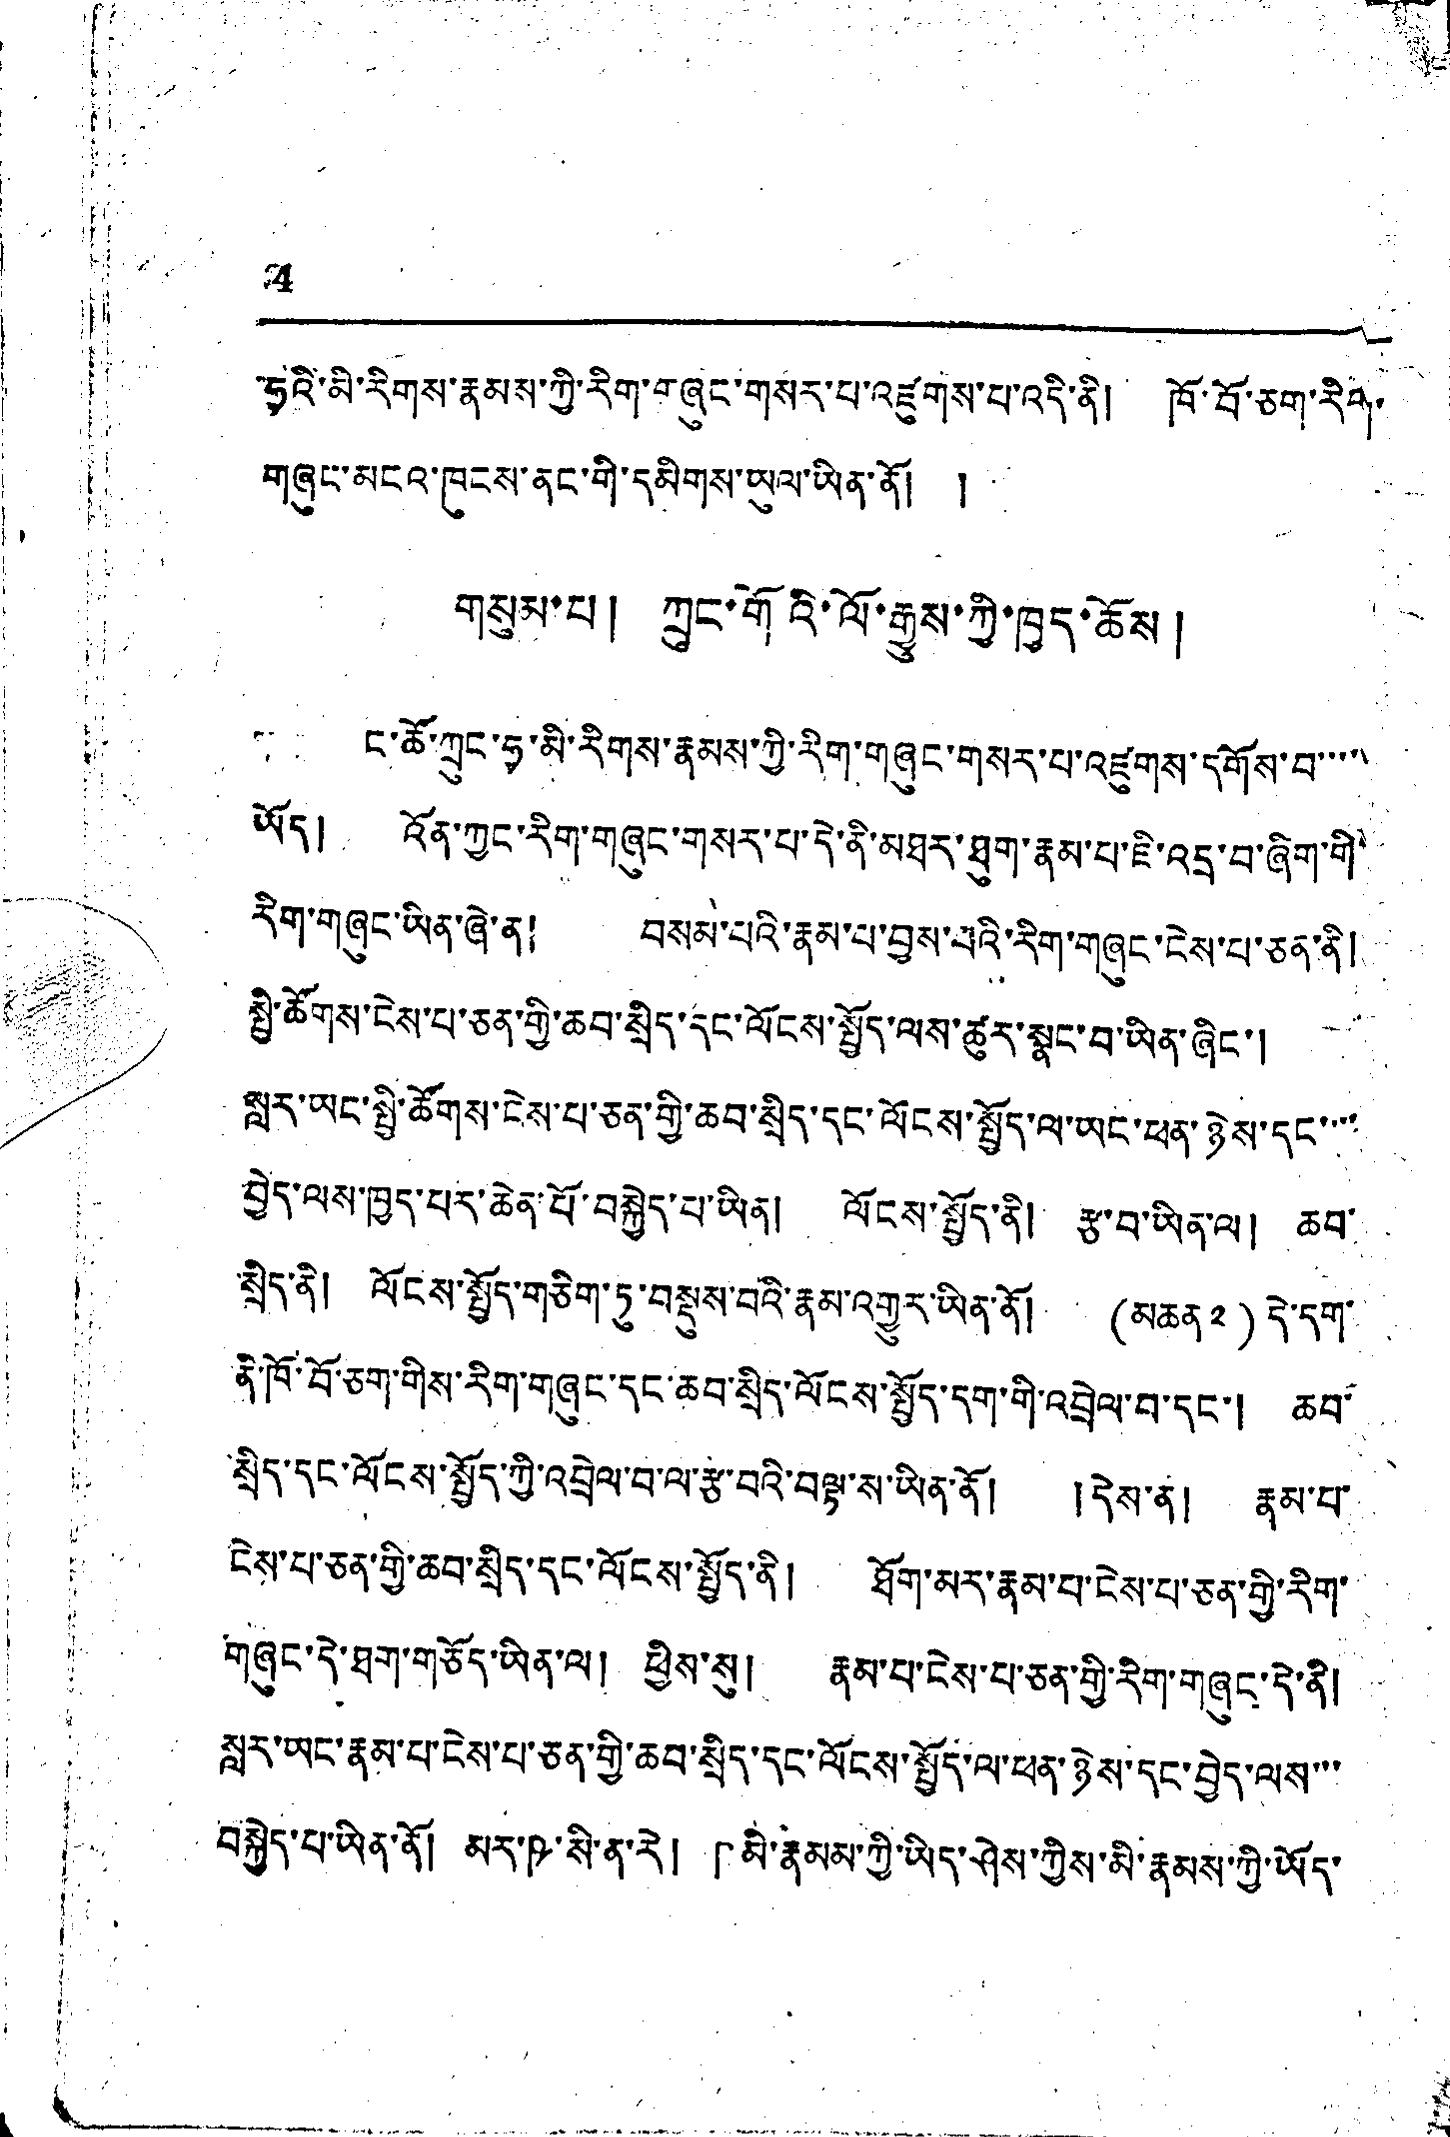4
ཧྭའི་མི་རིགས་རྣམས་ཀྱི་རིག་གཞུང་གསར་པ་འཛུགས་པ་འདི་ནི། ཁོ་བོ་ཅག་རིག་
གཞུང་མངའ་ཁུངས་ནང་གི་དམིགས་ཡུལ་ཡིན་ནོ། །
གསུམ་པ། ཀྲུང་གོའི་ལོ་རྒྱུས་ཀྱི་ཁྱད་ཆོས།
ང་ཚོ་ཀྲུང་ཧྭ་མི་རིགས་རྣམས་ཀྱི་རིག་གཞུང་གསར་པ་འཛུགས་དགོས་བ་་་་་
ཡོད། འོན་ཀྱང་རིག་གཞུང་གསར་པ་དེ་ནི་མཐར་ཐུག་རྣམ་པ་ཇི་འདྲ་བ་ཞིག་གི་
རིག་གཞུང་ཡིན་ཞེ་ན། བསམ་པའི་རྣམ་པ་བྱས་པའི་རིག་གཞུང་ངེས་པ་ཅན་ནི།
སྤྱི་ཚོགས་ངེས་པ་ཅན་གྱི་ཆབ་སྲིད་དང་ལོངས་སྤྱོད་ལས་ཚུར་སྣང་བ་ཡིན་ཞིང་།
སླར་ཡང་སྤྱི་ཚོགས་ངེས་པ་ཅན་གྱི་ཆབ་སྲིད་དང་ལོངས་སྤྱོད་ལ་ཡང་ཕན་ཉེས་དང་་་་
བྱེད་ལས་ཁྱད་པར་ཆེན་པོ་བསྐྱེད་པ་ཡིན། ལོངས་སྤྱོད་ནི། རྩ་བ་ཡིན་ལ། ཆབ་
སྲིད་ནི། ལོངས་སྤྱོད་གཅིག་ཏུ་བསྡུས་བའི་རྣམ་འགྱུར་ཡིན་ནོ། (མཆན ༢) དེ་དག་
ན་ཁོ་བོ་ཅག་གིས་རིག་གཞུང་དང་ཆབ་སྲིད་ལོངས་སྤྱོད་དག་གི་འབྲེལ་བ་དང་། ཆབ་
སྲིད་དང་ལོངས་སྤྱོད་ཀྱི་འབྲེལ་བ་ལ་རྩ་བའི་བལྟ་ས་ཡིན་ནོ། །དེས་ན། རྣམ་པ་
ངེས་པ་ཅན་གྱི་ཆབ་སྲིད་དང་ལོངས་སྤྱོད་ནི། ཐོག་མར་རྣམ་པ་ངེས་པ་ཅན་གྱི་རིག་
གཞུང་དེ་ཐག་གཅོད་ཡིན་ལ། ཕྱིས་སུ། རྣམ་པ་ངེས་པ་ཅན་གྱི་རིག་གཞུང་དེ་ནི།
སླར་ཡང་རྣམ་པ་ངེས་པ་ཅན་གྱི་ཆབ་སྲིད་དང་ལོངས་སྤྱོད་ལ་ཕན་ཉེས་དང་བྱེད་ལས་་་
བསྐྱེད་པ་ཡིན་ནོ། མར་ཥ་སི་ན་རེ། 「མི་རྣམམ་ཀྱི་ཡིད་ཤེས་ཀྱིས་མི་རྣམས་ཀྱི་ཡོད་
